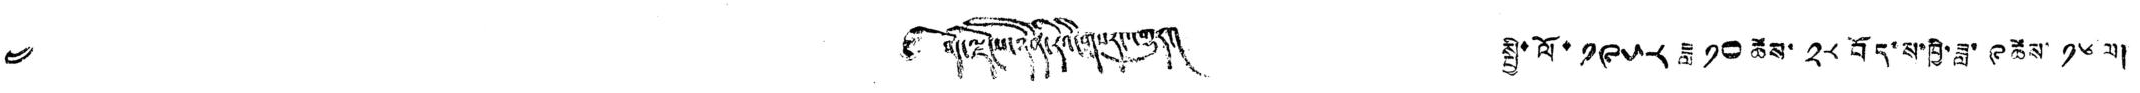༤ ༄ བོད་ལྗོངས་ཉིན་རེའི་གསར་འགྱུར། སྤྱི་ལོ་ ༡༩༥༨ ཟླ་ ༡༠ ཚེས་ ༢༨ བོད་ས་ཁྱི་ཟླ་ ༩ ཚེས་ ༡༦ ལ།
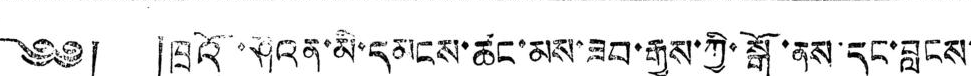༄༅། །ཁྲའོ་ཤིའན་མི་དམངས་ཚང་མས་ཟབ་རྒྱས་ཀྱི་སྒོ་ནས་དང་བླངས་
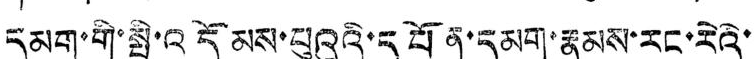དམག་གི་སྤྱི་འདོམས་པུའུའི་དཔོན་དམག་རྣམས་རང་རེའི་
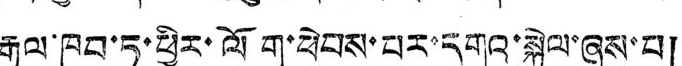རྒྱལ་ཁབ་ཏུ་ཕྱིར་ལོག་ཕེབས་པར་དགའ་སྐྱེལ་ཞུས་པ།
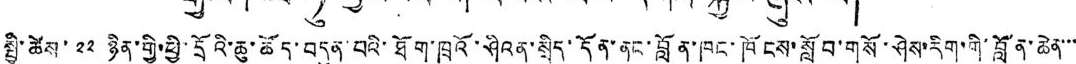སྤྱི་ཚེས་ ༢༢ ཉིན་གྱི་ཕྱི་དྲོའི་ཆུ་ཚོད་བདུན་པའི་ཐོག་ཁྲའོ་ཤིའན་སྲིད་དོན་ནང་བློན་ཁང་ཁོངས་སློབ་གསོ་ཤེས་རིག་གི་བློན་ཆེན་་་
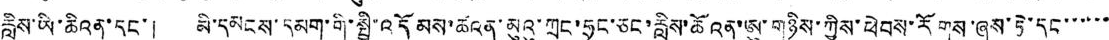རླིས་ཡི་ཆིའན་དང་། མི་དམངས་དམག་གི་སྤྱི་འདོམས་ཚའན་མུའུ་ཀྲང་ཧྲང་ཅང་རླིས་ཆོའན་ཨུ་གཉིས་ཀྱིས་ཕེབས་རོགས་ཞུས་ཏེ་དང་་་་་་
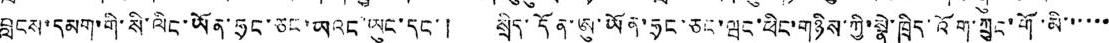བླངས་དམག་གི་སི་ལིང་ཡོན་ཧྲང་ཅང་ཡའང་ཡུང་དང་། སྲིད་དོན་ཨུ་ཡོན་ཧྲང་ཅང་ཝང་ཕིང་གཉིས་ཀྱི་སྣེ་ཁྲིད་འོག་ཀྲུང་གོ་མི་་་་་་
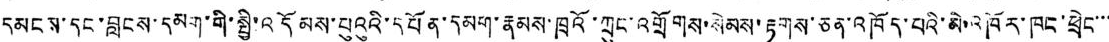དམངས་དང་བླངས་དམག་གི་སྤྱི་འདོམས་པུའུའི་དཔོན་དམག་རྣམས་ཁྲའོ་ཀྲུང་འགྲོགས་སེམས་རྟགས་ཅན་འཁོད་པའི་མེ་འཁོར་ཁང་ཕྲེང་་་
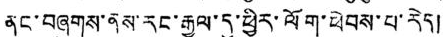ནང་བཞུགས་ནས་རང་རྒྱལ་དུ་ཕྱིར་ལོག་ཕེབས་པ་རེད།
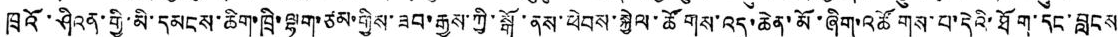ཁྲའོ་ཤིའན་གྱི་མི་དམངས་ཆིག་ཁྲི་ལྷག་ཙམ་གྱིས་ཟབ་རྒྱས་ཀྱི་སྒོ་ནས་ཕེབས་སྐྱེལ་ཚོགས་འདུ་ཆེན་མོ་ཞིག་འཚོགས་པ་དེའི་ཐོག་དང་བླངས
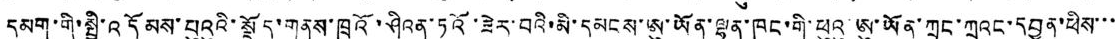དམག་གི་སྤྱི་འདོམས་པུའུའི་སྡོད་གནས་ཁྲའོ་ཤིའན་ཏའོ་ཟེར་བའི་མི་དམངས་ཨུ་ཡོན་ལྷན་ཁང་གི་ཕུའུ་ཨུ་ཡོན་ཀྲང་ཀྲའང་དབྱུན་ཕིས་་་
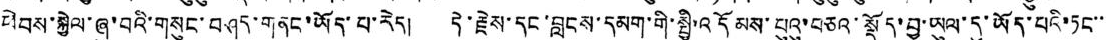ཕེབས་སྐྱེལ་ཞུ་བའི་གསུང་བཤད་གནང་ཡོད་པ་རེད། དེ་རྗེས་དང་བླངས་དམག་གི་སྤྱི་འདོམས་པུའུ་བཅའ་སྡོད་བྱ་ཡུལ་དུ་ཡོད་པའི་ཏང་་་
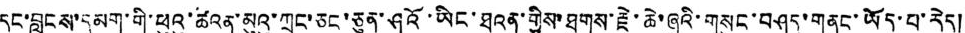དང་བླངས་དམག་གི་ཕུའུ་ཚའན་མུའུ་ཀྲང་ཅང་ཅུན་ཤའོ་ཡིང་ཐའན་གྱིས་ཐུགས་རྗེས་ཆེ་ཞུའི་གསུང་བཤད་གནང་ཡོད་པ་རེད།
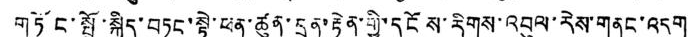གཏོང་སྤྲོ་སྐྱིད་བཏང་སྟེ་ཕན་ཚུན་དྲན་རྟེན་གྱི་དངོས་རིགས་འབུལ་རེས་གནང་འདུག
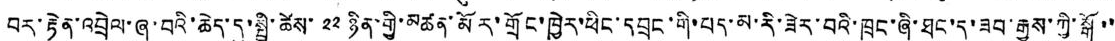བར་རྟེན་འབྲེལ་ཞུ་བའི་ཆེད་དུ་སྤྱི་ཚེས་ ༢༢ ཉིན་གྱི་མཚན་མོར་གྲོང་ཁྱེར་ཕིང་དབྲང་གི་པད་མ་རི་ཟེར་བའི་ཁྲང་ཞི་ཐང་དུ་ཟབ་རྒྱས་ཀྱི་སྒོ་་
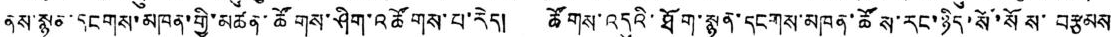ནས་སྙན་དངགས་མཁན་གྱི་མཚན་ཚོགས་ཤིག་འཚོགས་པ་རེད། ཚོགས་འདུའི་ཐོག་སྙན་དངགས་མཁན་ཚོས་རང་ཉིད་སོ་སོས་བརྩམས
